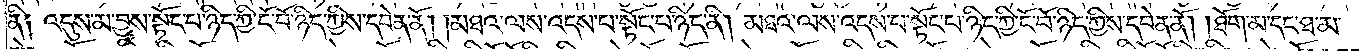ནི༑ འདུས་མ་བྱས་སྟོང་པ་ཉིད་ཀྱི་ངོ་བོ་ཉིད་ཀྱིས་དབེན་ནོ། །མཐའ་ལས་འདས་པ་སྟོང་པ་ཉིད་ནི། མཐའ་ལས་འདས་པ་སྟོང་པ་ཉིད་ཀྱི་ངོ་བོ་ཉིད་ཀྱིས་དབེན་ནོ། །ཐོག་མ་དང་ཐ་མ་
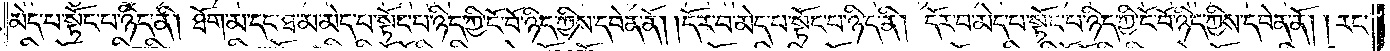མེད་པ་སྟོང་པ་ཉིད་ནི། ཐོག་མ་དང་ཐ་མ་མེད་པ་སྟོང་པ་ཉིད་ཀྱི་ངོ་བོ་ཉིད་ཀྱིས་དབེན་ནོ། དོར་བ་མེད་པ་སྟོང་པ་ཉིད་ནི། དོར་བ་མེད་པ་སྟོང་པ་ཉིད་ཀྱི་ངོ་བོ་ཉིད་ཀྱིས་དབེན་ནོ། །རང་
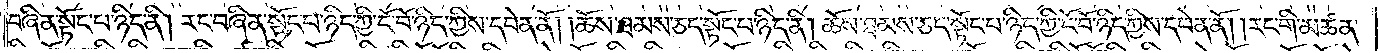བཞིན་སྟོང་པ་ཉིད་ནི། རང་བཞིན་སྟོང་པ་ཉིད་ཀྱི་ངོ་བོ་ཉིད་ཀྱིས་དབེན་ནོ། །ཆོས་ཐམས་ཅད་སྟོང་པ་ཉིད་ནི། ཆོས་ཐམས་ཅད་སྟོང་པ་ཉིད་ཀྱི་ངོ་བོ་ཉིད་ཀྱིས་དབེན་ནོ། །རང་གི་མཚན་
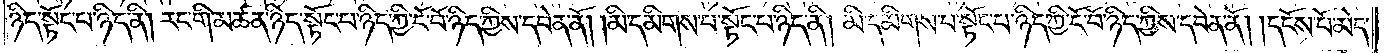ཉིད་སྟོང་པ་ཉིད་ནི། རང་གི་མཚན་ཉིད་སྟོང་པ་ཉིད་ཀྱི་ངོ་བོ་ཉིད་ཀྱིས་དབེན་ནོ། །མི་དམིགས་པ་སྟོང་པ་ཉིད་ནི། མི་དམིགས་པ་སྟོང་པ་ཉིད་ཀྱི་ངོ་བོ་ཉིད་ཀྱིས་དབེན་ནོ། །དངོས་པོ་མེད་
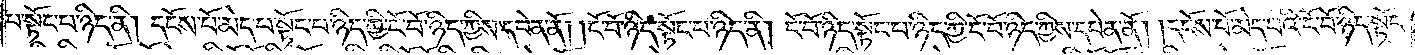པ་སྟོང་པ་ཉིད་ནི། དངོས་པོ་མེད་པ་སྟོང་པ་ཉིད་ཀྱི་ངོ་བོ་ཉིད་ཀྱིས་དབེན་ནོ། །ངོ་བོ་ཉིད་སྟོང་པ་ཉིད་ནི། ངོ་བོ་ཉིད་སྟོང་པ་ཉིད་ཀྱི་ངོ་བོ་ཉིད་ཀྱིས་དབེན་ནོ། །དངོས་པོ་མེད་པའི་ངོ་བོ་ཉིད་སྟོང་
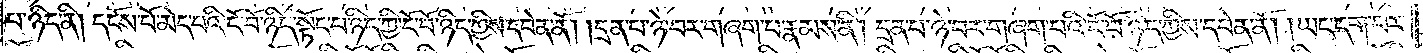པ་ཉིད་ནི། དངོས་པོ་མེད་པའི་ངོ་བོ་ཉིད་སྟོང་པ་ཉིད་ཀྱི་ངོ་བོ་ཉིད་ཀྱིས་དབེན་ནོ། །དྲན་པ་ཉེ་བར་གཞག་པ་རྣམས་ནི། དྲན་པ་ཉེ་བར་གཞག་པའི་ངོ་བོ་ཉིད་ཀྱིས་དབེན་ནོ། །ཡང་དག་པར་
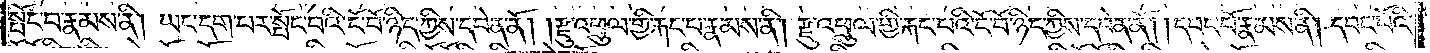སྤོང་བ་རྣམས་ནི། ཡང་དག་པར་སྤོང་བའི་ངོ་བོ་ཉིད་ཀྱིས་དབེན་ནོ། །རྫུ་འཕྲུལ་གྱི་རྐང་པ་རྣམས་ནི། རྫུ་འཕྲུལ་གྱི་རྐང་པའི་ངོ་བོ་ཉིད་ཀྱིས་དབེན་ནོ། དབང་པོ་རྣམས་ནི། དབང་པོའི་
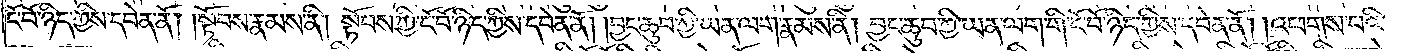ངོ་བོ་ཉིད་ཀྱིས་དབེན་ནོ། །སྟོབས་རྣམས་ནི། སྟོབས་ཀྱི་ངོ་བོ་ཉིད་ཀྱིས་དབེན་ནོ། །བྱང་ཆུབ་ཀྱི་ཡན་ལག་རྣམས་ནི། བྱང་ཆུབ་ཀྱི་ཡན་ལག་གི་ངོ་བོ་ཉིད་ཀྱིས་དབེན་ནོ། །འཕགས་པའི་
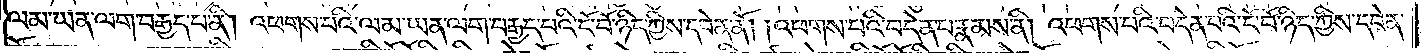ལམ་ཡན་ལག་བརྒྱད་པ་ནི། འཕགས་པའི་ལམ་ཡན་ལག་བརྒྱད་པའི་ངོ་བོ་ཉིད་ཀྱིས་དབེན་ནོ། །འཕགས་པའི་བདེན་པ་རྣམས་ནི། འཕགས་པའི་བདེན་པའི་ངོ་བོ་ཉིད་ཀྱིས་དབེན་
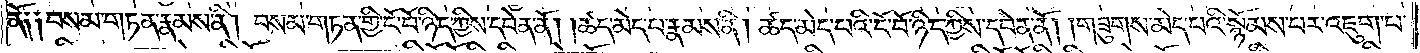ནོ༑ ༑བསམ་གཏན་རྣམས་ནི། བསམ་གཏན་གྱི་ངོ་བོ་ཉིད་ཀྱིས་དབེན་ནོ། །ཚད་མེད་པ་རྣམས་ནི། ཚད་མེད་པའི་ངོ་བོ་ཉིད་ཀྱིས་དབེན་ནོ། །གཟུགས་མེད་པའི་སྙོམས་པར་འཇུག་པ་
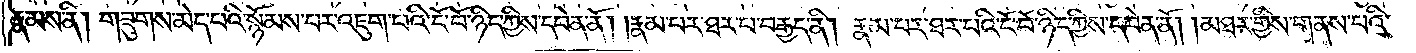རྣམས་ནི། གཟུགས་མེད་པའི་སྙོམས་པར་འཇུག་པའི་ངོ་བོ་ཉིད་ཀྱིས་དབེན་ནོ། །རྣམ་པར་ཐར་པ་བརྒྱད་ནི། རྣམ་པར་ཐར་པའི་ངོ་བོ་ཉིད་ཀྱིས་དབེན་ནོ། །མཐར་གྱིས་གནས་པའི་
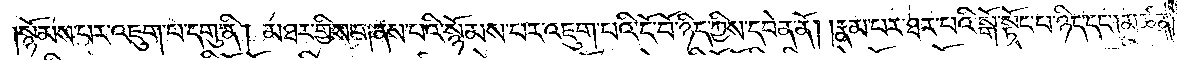སྙོམས་པར་འཇུག་པ་དགུ་ནི། མཐར་གྱིས་གནས་པའི་སྙོམས་པར་འཇུག་པའི་ངོ་བོ་ཉིད་ཀྱིས་དབེན་ནོ། །རྣམ་པར་ཐར་པའི་སྒོ་སྟོང་པ་ཉིད་དང༌། མཚན་
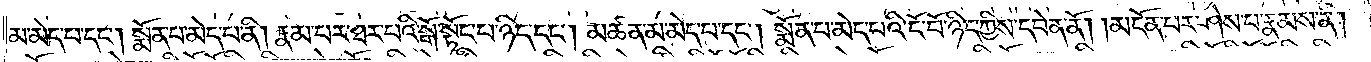མ་མེད་པ་དང༌། སྨོན་པ་མེད་པ་ནི། རྣམ་པར་ཐར་པའི་སྒོ་སྟོང་པ་ཉིད་དང༌། མཚན་མ་མེད་པ་དང༌། སྨོན་པ་མེད་པའི་ངོ་བོ་ཉིད་ཀྱིས་དབེན་ནོ། །མངོན་པར་ཤེས་པ་རྣམས་ནི།
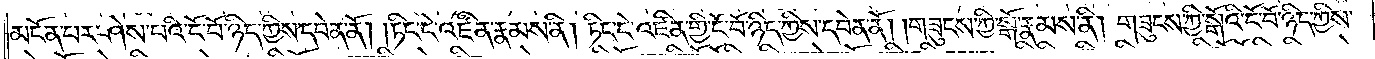མངོན་པར་ཤེས་པའི་ངོ་བོ་ཉིད་ཀྱིས་དབེན་ནོ། ཏིང་ངེ་འཛིན་རྣམས་ནི། ཏིང་ངེ་འཛིན་གྱི་ངོ་བོ་ཉིད་ཀྱིས་དབེན་ནོ། །གཟུངས་ཀྱི་སྒོ་རྣམས་ནི། གཟུངས་ཀྱི་སྒོའི་ངོ་བོ་ཉིད་ཀྱིས་
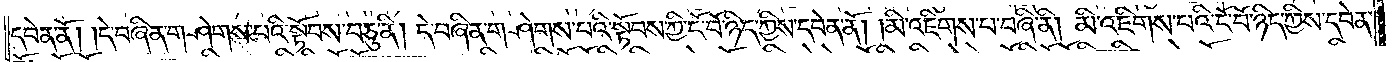དབེན་ནོ། །དེ་བཞིན་གཤེགས་པའི་སྟོབས་བཅུ་ནི། དེ་བཞིན་གཤེགས་པའི་སྟོབས་ཀྱི་ངོ་བོ་ཉིད་ཀྱིས་དབེན་ནོ། །མི་འཇིགས་པ་བཞི་ནི། མི་འཇིགས་པའི་ངོ་བོ་ཉིད་ཀྱིས་དབེན་
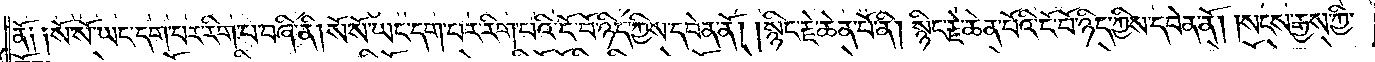ནོ༑ ༑སོ་སོ་ཡང་དག་པར་རིག་པ་བཞི་ནི། སོ་སོ་ཡང་དག་པར་རིག་པའི་ངོ་བོ་ཉིད་ཀྱིས་དབེན་ནོ། །སྙིང་རྗེ་ཆེན་པོ་ནི། སྙིང་རྗེ་ཆེན་པོའི་ངོ་བོ་ཉིད་ཀྱིས་དབེན་ནོ། །སངས་རྒྱས་ཀྱི་
